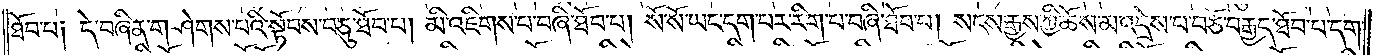ཐོབ་པ༑ དེ་བཞིན་གཤེགས་པའི་སྟོབས་བཅུ་ཐོབ་པ། མི་འཇིགས་པ་བཞི་ཐོབ་པ། སོ་སོ་ཡང་དག་པར་རིག་པ་བཞི་ཐོབ་པ། སངས་རྒྱས་ཀྱི་ཆོས་མ་འདྲེས་པ་བཅོ་བརྒྱད་ཐོབ་པ་དག་
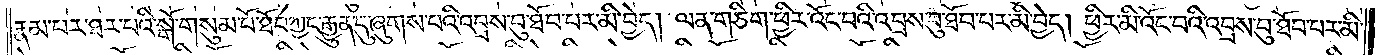རྣམ་པར་ཐར་པའི་སྒོ་གསུམ་བོ་ཐོབ་ཀྱང་རྒྱུན་དུ་ཞུགས་པའི་འབྲས་བུ་ཐོབ་པར་མི་བྱེད། ལན་གཅིག་ཕྱིར་འོང་བའི་འབྲས་བུ་ཐོབ་པར་མི་བྱེད། ཕྱིར་མི་འོང་བའི་འབྲས་བུ་ཐོབ་པར་མི་
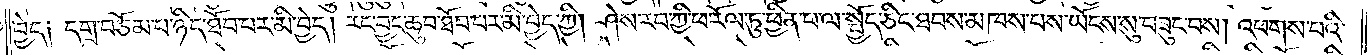བྱེད༑ དགྲ་བཅོམ་པ་ཉིད་ཐོབ་པར་མི་བྱེད། རང་བྱང་ཆུབ་ཐོབ་པར་མི་བྱེད་ཀྱི། ཤེས་རབ་ཀྱི་ཕ་རོལ་ཏུ་ཕྱིན་པ་ལ་སྤྱོད་ཅིང་ཐབས་མཁས་པས་ཡོངས་སུ་བཟུང་བས། འཕགས་པའི་
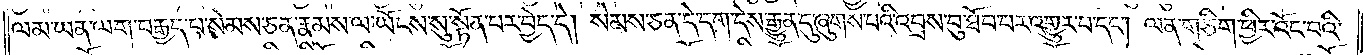ལམ་ཡན་ལག་བརྒྱད་པ་སེམས་ཅན་རྣམས་ལ་ཡོངས་སུ་སྟོན་པར་བྱེད་དེ། སེམས་ཅན་དེ་དག་དེས་རྒྱུན་དུ་ཞུགས་པའི་འབྲས་བུ་ཐོབ་པར་འགྱུར་བ་དང༌། ལན་གཅིག་ཕྱིར་འོང་བའི་
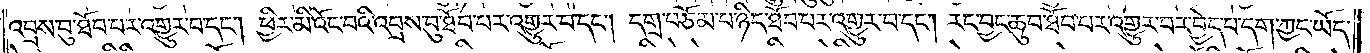འབྲས་བུ་ཐོབ་པར་འགྱུར་བ་དང༌། ཕྱིར་མི་འོང་བའི་འབྲས་བུ་ཐོབ་པར་འགྱུར་བ་དང༌། དགྲ་བཅོམ་པ་ཉིད་ཐོབ་པར་འགྱུར་བ་དང༌། རང་བྱང་ཆུབ་ཐོབ་པར་འགྱུར་བར་བྱེད་པ་དག་ཀྱང་ཡོད་
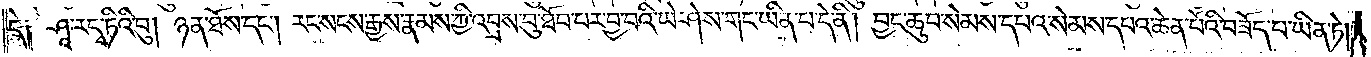དེ༑ ཤཱ་རདྭ་ཏིའི་བུ། ཉན་ཐོས་དང༌། རང་སངས་རྒྱས་རྣམས་ཀྱི་འབྲས་བུ་ཐོབ་པར་བྱ་བའི་ཡེ་ཤེས་གང་ཡིན་པ་དེ་ནི། བྱང་ཆུབ་སེམས་དཔའ་སེམས་དཔའ་ཆེན་པོའི་བཟོད་པ་ཡིན་ཏེ།
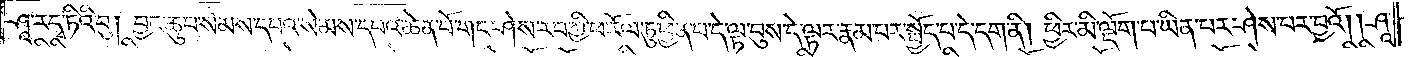ཤཱ་རདྭ་ཏིའི་བུ། བྱང་ཆུབ་སེམས་དཔའ་སེམས་དཔའ་ཆེན་པོ་གང་ཤེས་རབ་ཀྱི་ཕ་རོལ་ཏུ་ཕྱིན་པ་དེ་ལྟ་བུས་དེ་ལྟར་རྣམ་པར་སྤྱོད་པ་དེ་དག་ནི། ཕྱིར་མི་ལྡོག་པ་ཡིན་པར་ཤེས་པར་བྱའོ། །ཤཱ་
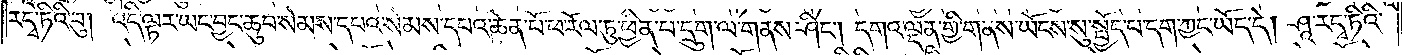ར་དྭ་ཏིའི་བུ། འདི་ལྟར་ཡང་བྱང་ཆུབ་སེམས་དཔའ་སེམས་དཔའ་ཆེན་པོ་ཕ་རོལ་ཏུ་ཕྱིན་པ་དྲུག་ལ་གནས་ཤིང༌། དགའ་ལྡན་གྱི་གནས་ཡོངས་སུ་སྤྱོད་པ་དག་ཀྱང་ཡོད་དེ། ཤཱ་ར་དྭ་ཏིའི་
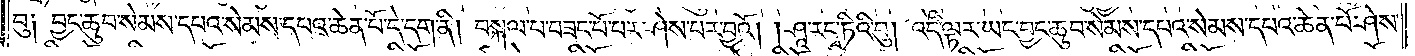བུ༑ བྱང་ཆུབ་སེམས་དཔའ་སེམས་དཔའ་ཆེན་པོ་དེ་དག་ནི། བསྐལ་པ་བཟང་པོ་པར་ཤེས་པར་བྱའོ། །ཤཱ་ར་དྭ་ཏིའི་བུ། འདི་ལྟར་ཡང་བྱང་ཆུབ་སེམས་དཔའ་སེམས་དཔའ་ཆེན་པོ་ཤེས་
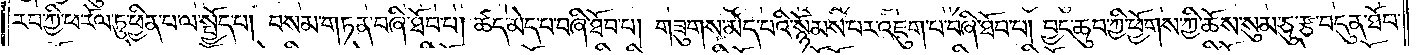རབ་ཀྱི་ཕ་རོལ་ཏུ་ཕྱིན་པ་ལ་སྤྱོད་པ། བསམ་གཏན་བཞི་ཐོབ་པ། ཚད་མེད་པ་བཞི་ཐོབ་པ། གཟུགས་མེད་པའི་སྙོམས་པར་འཇུག་པ་བཞི་ཐོབ་པ། བྱང་ཆུབ་ཀྱི་ཕྱོགས་ཀྱི་ཆོས་སུམ་ཅུ་རྩ་བདུན་ཐོབ་
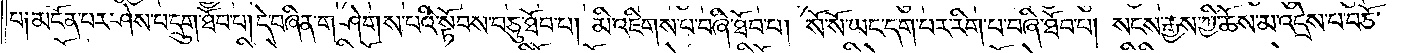པ༑ མངོན་པར་ཤེས་པ་དྲུག་ཐོབ་པ། དེ་བཞིན་གཤེགས་པའི་སྟོབས་བཅུ་ཐོབ་པ། མི་འཇིགས་པ་བཞི་ཐོབ་པ། སོ་སོ་ཡང་དག་པར་རིག་པ་བཞི་ཐོབ་པ། སངས་རྒྱས་ཀྱི་ཆོས་མ་འདྲེས་པ་བཅོ་
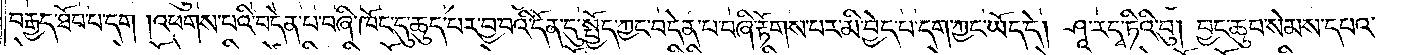བརྒྱད་ཐོབ་པ་དག །འཕགས་པའི་བདེན་པ་བཞི་ཁོང་དུ་ཆུད་པར་བྱ་བའི་དོན་དུ་སྤྱོད་ཀྱང་བདེན་པ་བཞི་རྟོགས་པར་མི་བྱེད་པ་དག་ཀྱང་ཡོད་དེ། ཤཱ་ར་དྭ་ཏིའི་བུ། བྱང་ཆུབ་སེམས་དཔའ་
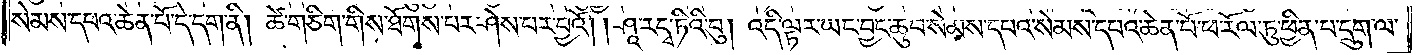སེམས་དཔའ་ཆེན་པོ་དེ་དག་ནི། ཚེ་གཅིག་གིས་ཐོགས་པར་ཤེས་པར་བྱའོ། །ཤཱ་ར་དྭ་ཏིའི་བུ། འདི་ལྟར་ཡང་བྱང་ཆུབ་སེམས་དཔའ་སེམས་དཔའ་ཆེན་པོ་ཕ་རོལ་ཏུ་ཕྱིན་པ་དྲུག་ལ་
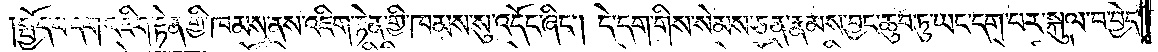སྤྱོད་པ་དག་འཇིག་རྟེན་གྱི་ཁམས་ནས་འཇིག་རྟེན་གྱི་ཁམས་སུ་འདོང་ཞིང༌། དེ་དག་གིས་སེམས་ཅན་རྣམས་བྱང་ཆུབ་ཏུ་ཡང་དག་པར་སྐུལ་བ་བྱེད་
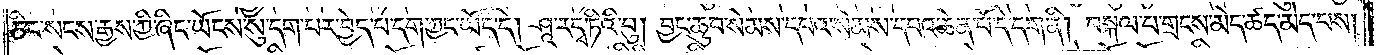ཅིང་སངས་རྒྱས་ཀྱི་ཞིང་ཡོངས་སུ་དག་པར་བྱེད་པ་དག་ཀྱང་ཡོད་དེ། ཤཱ་ར་དྭ་ཏིའི་བུ། བྱང་ཆུབ་སེམས་དཔའ་སེམས་དཔའ་ཆེན་པོ་དེ་དག་ནི། བསྐལ་པ་གྲངས་མེད་ཚད་མེད་པས།
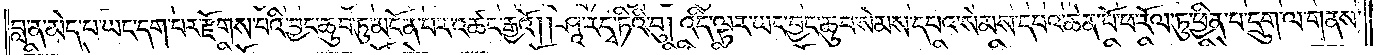བླ་ན་མེད་པ་ཡང་དག་པར་རྫོགས་པའི་བྱང་ཆུབ་ཏུ་མངོན་པར་འཚང་རྒྱའོ། །ཤཱ་ར་དྭ་ཏིའི་བུ། འདི་ལྟར་ཡང་བྱང་ཆུབ་སེམས་དཔའ་སེམས་དཔའ་ཆེན་པོ་ཕ་རོལ་ཏུ་ཕྱིན་པ་དྲུག་ལ་གནས་
